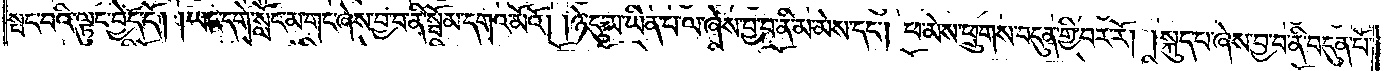སྤང་བའི་ལྟུང་བྱེད་དོ། །ཡང་དགེ་སློང་མ་གང་ཞེས་བྱ་བ་ནི་སྦོམ་དགའ་མོའོ། །ཉེ་དུ་མ་ཡིན་པ་ལ་ཞེས་བྱ་བ་ནི་མ་མེས་དང༌། ཕ་མེས་ཕྲུགས་བདུན་གྱི་བར་རོ། །སྐུད་པ་ཞེས་བྱ་བ་ནི་བདུན་པོ་
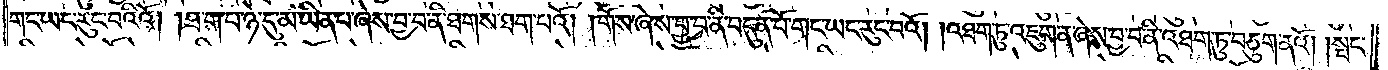གང་ཡང་རུང་བའིའོ། །ཐ་ག་པ་ཉེ་དུ་མ་ཡིན་པ་ཞེས་བྱ་བ་ནི་ཐགས་ཐག་པའོ། །གོས་ཞེས་བྱ་བ་ནི་བདུན་པོ་གང་ཡང་རུང་བའོ། །འཐག་ཏུ་འཇུག་ན་ཞེས་བྱ་བ་ནི་འཐག་ཏུ་བཅུག་ནའོ། །སྤང་
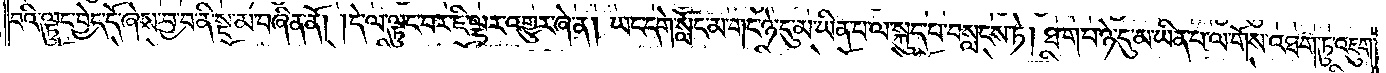བའི་ལྟུང་བྱེད་དོ་ཞེས་བྱ་བ་ནི་སྔ་མ་བཞིན་ནོ། །དེ་ལ་ལྟུང་བར་ཇི་ལྟར་འགྱུར་ཞེ་ན། ཡང་དགེ་སློང་མ་གང་ཉེ་དུ་མ་ཡིན་པ་ལ་སྐུད་པ་བསླངས་ཏེ། ཐག་པ་ཉེད་དུ་མ་ཡིན་པ་ལ་གོས་འཐག་ཏུ་འཇུག་
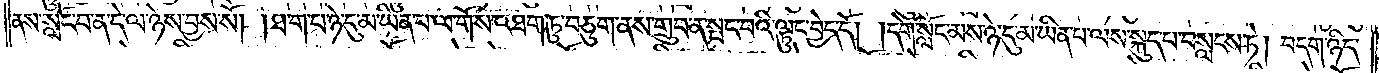ནས་སློང་བ་ན་དེ་ལ་ཉེས་བྱས་སོ། །ཐ་ག་པ་ཉེ་དུ་མ་ཡིན་པ་ལ་གོས་འཐག་ཏུ་བཅུག་ནས་གྲུབ་ན་སྤང་བའི་ལྟུང་བྱེད་དོ། །དགེ་སློང་མས་ཉེ་དུ་མ་ཡིན་པ་ལས་སྐུད་པ་བསླངས་ཏེ། བདག་ཉིད་
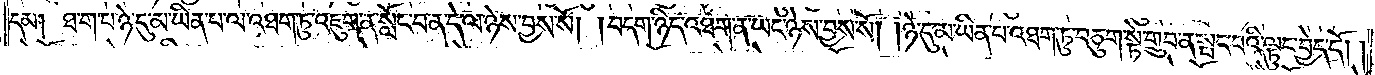དམ། ཐ་ག་པ་ཉེ་དུ་མ་ཡིན་པ་ལ་འཐག་ཏུ་འཇུག་ན་སློང་བ་ན་དེ་ལ་ཉེས་བྱས་སོ། །བདག་ཉིད་འཐག་ན་ཡང་ཉེས་བྱས་སོ། །ཉེ་དུ་མ་ཡིན་པ་འཐག་ཏུ་བཅུག་སྟེ་གྲུབ་ན་སྤང་བའི་ལྟུང་བྱེད་དོ། །
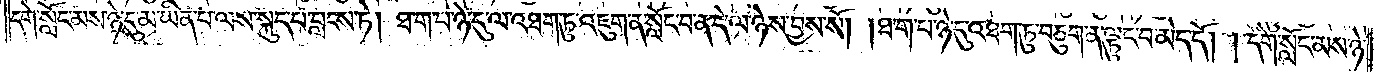དགེ་སློང་མས་ཉེ་དུ་མ་ཡིན་པ་ལས་སྐུད་པ་བླངས་ཏེ། ཐ་ག་པ་ཉེ་དུ་ལ་འཐག་ཏུ་འཇུག་ན་སློང་བ་ན་དེ་ལ་ཉེས་བྱས་སོ། །ཐ་ག་པ་ཉེ་དུ་འཐག་ཏུ་བཅུག་ན་ལྟུང་བ་མེད་དོ། །དགེ་སློང་མས་ཉེ་
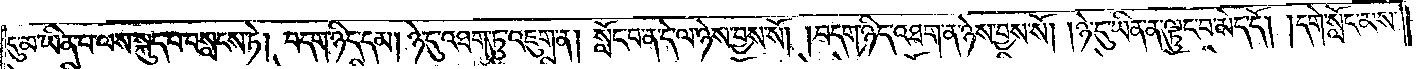དུ་མ་ཡིན་པ་ལས་སྐུད་པ་བསླངས་ཏེ། བདག་ཉིད་དམ། ཉེ་དུ་འཐག་ཏུ་འཇུག་ན། སློང་བ་ན་དེ་ལ་ཉེས་བྱས་སོ། །བདག་ཉིད་འཐག་ན་ཉེས་བྱས་སོ། །ཉེ་དུ་ཡིན་ན་ལྟུང་བ་མེད་དོ། །དགེ་སློང་མས་
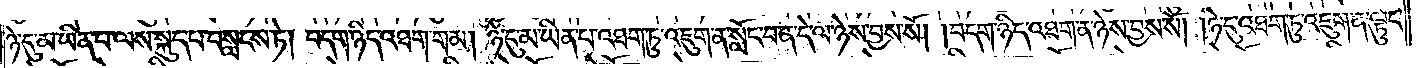ཉེ་དུ་མ་ཡིན་པ་ལས་སྐུད་པ་བསླངས་ཏེ། བདག་ཉིད་འཐག་གམ། ཉེ་དུ་མ་ཡིན་པ་འཐག་ཏུ་འཇུག་ན་སློང་བ་ན་དེ་ལ་ཉེས་བྱས་སོ། །བདག་ཉིད་འཐག་ན་ཉེས་བྱས་སོ། །ཉེ་དུ་འཐག་ཏུ་འཇུག་ན་ལྟུང་
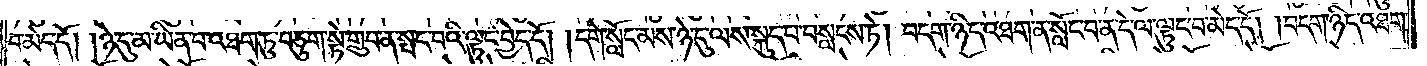བ་མེད་དོ། །ཉེ་དུ་མ་ཡིན་པ་འཐག་ཏུ་བཅུག་སྟེ་གྲུབ་ན་སྤང་བའི་ལྟུང་བྱེད་དོ། །དགེ་སློང་མས་ཉེ་དུ་ལས་སྐུད་པ་བསླངས་ཏེ། བདག་ཉིད་འཐག་ན་སློང་བ་ན་དེ་ལ་ལྟུང་བ་མེད་དོ། །བདག་ཉིད་འཐག་
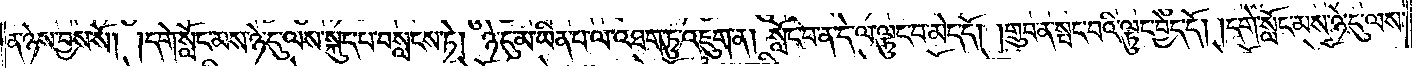ན་ཉེས་བྱས་སོ། །དགེ་སློང་མས་ཉེ་དུ་ལས་སྐུད་པ་བསླངས་ཏེ། ཉེ་དུ་མ་ཡིན་པ་ལ་འཐག་ཏུ་འཇུག་ན། སློང་བ་ན་དེ་ལ་ལྟུང་བ་མེད་དོ། །གྲུབ་ན་སྤང་བའི་ལྟུང་བྱེད་དོ། །དགེ་སློང་མས་ཉེ་དུ་ལས་
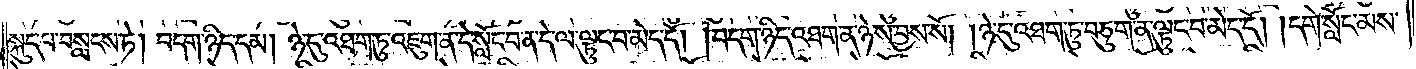སྐུད་པ་བསླངས་ཏེ། བདག་ཉིད་དམ། ཉེ་དུ་འཐག་ཏུ་འཇུག་ན་དེ་སློང་བ་ན་དེ་ལ་ལྟུང་བ་མེད་དོ། །བདག་ཉིད་འཐག་ན་ཉེས་བྱས་སོ། །ཉེ་དུ་འཐག་ཏུ་བཅུག་ན་ལྟུང་བ་མེད་དོ། །དགེ་སློང་མས་
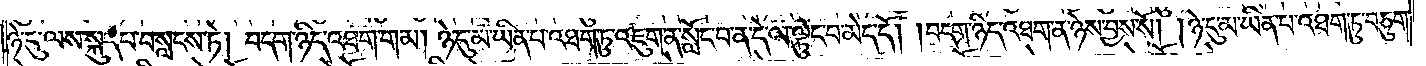ཉེ་དུ་ལས་སྐུད་པ་བསླངས་ཏེ། བདག་ཉིད་འཐག་གམ། ཉེ་དུ་མ་ཡིན་པ་འཐག་ཏུ་འཇུག་ན་སློང་བ་ན་དེ་ལ་ལྟུང་བ་མེད་དོ། །བདག་ཉིད་འཐག་ན་ཉེས་བྱས་སོ། །ཉེ་དུ་མ་ཡིན་པ་འཐག་ཏུ་བཅུག་
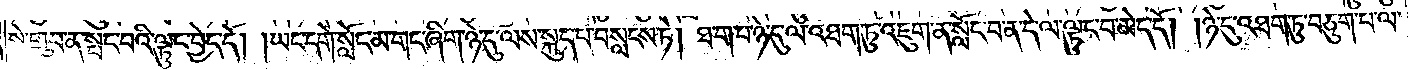སྟེ་གྲུབ་ན་སྤང་བའི་ལྟུང་བྱེད་དོ། །ཡང་དགེ་སློང་མ་གང་ཞིག་ཉེ་དུ་ལས་སྐུད་པ་བསླངས་ཏེ། ཐ་ག་པ་ཉེ་དུ་ལ་འཐག་ཏུ་འཇུག་ན་སློང་བ་ན་དེ་ལ་ལྟུང་བ་མེད་དོ། །ཉེ་དུ་འཐག་ཏུ་བཅུག་པ་ལ་
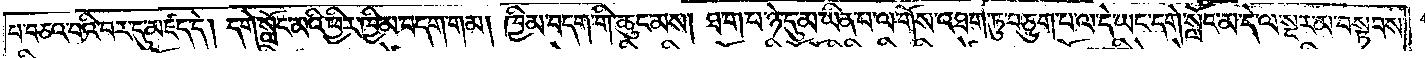པ་བཅའ་བའི་བར་དུ་མཛད་དེ། དགེ་སློང་མའི་ཕྱིར་ཁྱིམ་བདག་གམ། ཁྱིམ་བདག་གི་ཆུང་མས། ཐ་ག་པ་ཉེ་དུ་མ་ཡིན་པ་ལ་གོས་འཐག་ཏུ་བཅུག་པ་ལ་དེ་ཡང་དགེ་སློང་མ་དེ་ལ་སྔར་མ་བསྟབས་
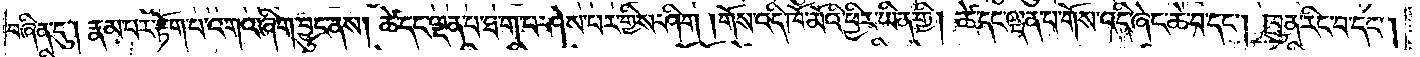བཞིན་དུ། རྣམ་པར་རྟོག་པ་འགའ་ཞིག་བྱུང་ནས། ཚེ་དང་ལྡན་པ་ཐ་ག་པ་ཤེས་པར་གྱིས་ཤིག །གོས་འདི་ཁོ་མོའི་ཕྱིར་ཡིན་གྱི། ཚེ་དང་ལྡན་པ་གོས་འདི་ཞེང་ཆེ་བ་དང༌། ཁྲུན་རིང་བ་དང༌།
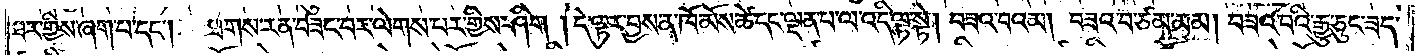ཐར་གྱིས་ཞག་པ་དང༌། ཐགས་རན་བཟང་བར་ལེགས་པར་གྱིས་ཤིག །དེ་ལྟར་བྱས་ན་ཁོ་མོས་ཚེ་དང་ལྡན་པ་ལ་འདི་ལྟ་སྟེ། བཟའ་བའམ། བཟའ་བ་ཙམ་མམ། བཟའ་བའི་རྒྱུ་ཅུང་ཟད་
